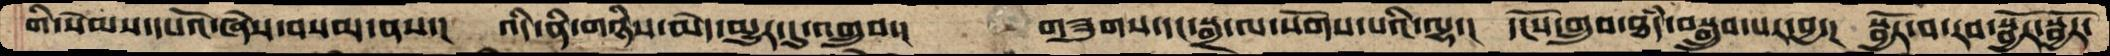གི་སེམས་དཔའོ་ཞེས་བསམ་ནས་།  འདི་ནི་གཉིས་མེད་མྱུར་དུ་འགྲུབ་།    གཟུགས་དང་སྒྲ་ལ་སོགས་པའི་ལྷ་།  དངོས་གྲུབ་ཐཾད་བསྒྲུབ་པར་བྱ་།  སྦྱོར་བ་རབ་སྦྱོར་སྦྱོར་
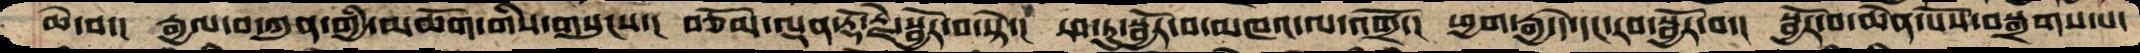ཆེ་བ་།  རྒྱལ་བ་ཀུན་གྱི་མཆོག་གིས་གསུངས་།  བཅོམ་ལྡན་རྡོ་རྗེ་སྦྱོར་བ་སྟེ་།  རབ་ཏུ་སྦྱོར་བ་མཁའ་ལ་འགྲོ་། ཕྱག་རྒྱ་དེ་དང་རབ་སྦྱོར་བ་།  སྦྱོར་བ་ཆེན་པོས་བསྒྲགས་པ་
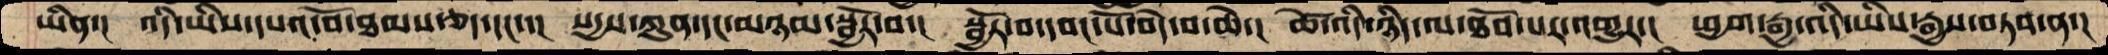ཡིན་།  འདི་ཡིས་དཔའ་བོ་ཐམས་ཅད་དང་་།  སདྱས་ཀུན་དང་མཉམ་སྦྱོར་བ་།  སྦྱོར་བ་དབང་པོ་བདེ་བ་ཆེ་།  ཚེ་འདི་ཉིད་ལ་ཐོབ་པར་འགྱུར་།  ཕྱག་རྒྱ་འདི་ཡིས་རྒྱས་བཏབ་ན་།
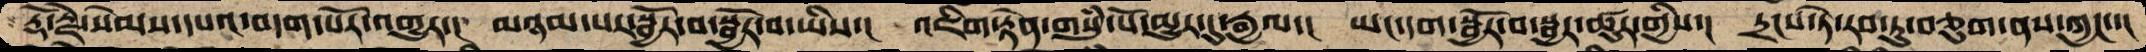རྡོ་རྗེ་སེམས་དཔའ་བདག་པོར་འགྱུར་།  མཉམ་པར་སྦྱོར་བ་སྦྱོར་བ་ཡིས་།  འཇིག་རྟེན་གསུཾ་པོ་མྱུར་དུ་རྒྱལ་།  ཡང་དག་སྦྱོར་བ་སྦྱར་ཚུར་གྱིས་།  དྲངས་ཏེ་རབ་ཏུ་བཅུག་ནས་ཀྱང་་།
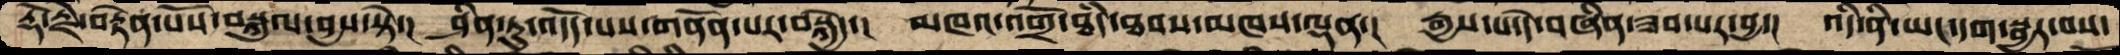རྡོ་རྗེ་བརྟེན་པོས་བསྐུལ་བྱས་སྟེ་།  ཤིན་ཏུ་འདོད་པས་གནོན་པར་བསྐྱེད་།  མཁའ་འགྲོ་ཐཾད་ཐབས་མཁས་ལྡན་།  རྒྱས་པ་དེ་བཞིན་ཟབ་པར་བྱ་།  འདི་ནི་ཡང་དག་སྦྱར་བས་
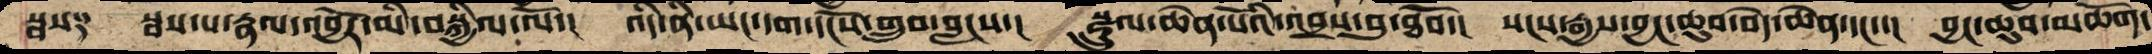སྦས༑  སྦས་པ་རྣལ་འབྱོར་མི་བསྐྱིལ་ལོ་།  འདི་ནི་ཡང་དག་དངོས་གྲུབ་བླངས་།  སྫྲུལ་ཆེན་པོའི་འབྲས་བུ་ཐོབ་།  སངས་རྒྱས་བྱང་ཆུབ་བདེ་ཆེན་དང་་།  བྱང་ཆུབ་མཆོག་
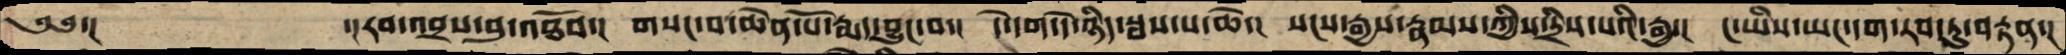༄༅་།     ་།རབ་འབྲས་བུ་འཐོབ་།  གསང་བ་ཆེན་པོ་རྨད་བྱུང་བ་།  དེ་དག་དེ་ཉིད་སྦས་པ་ཆེ་།  སངས་རྒྱས་རྣམས་ཀྱིས་དྲིས་པའི་རྒྱུ་།  ང་ཡིས་ཡང་དག་རབ་ཏུ་བརྟན་།
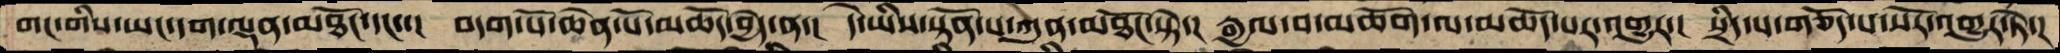གང་གིས་ཡང་དག་ལྡན་མཐོང་དང་་།  བདག་པོ་ཆེན་པོ་མཆོད་བྱེད་ན་།  དེ་ཡིས་སྟོན་པ་ཀུན་མཐོང་སྟེ་།  རྒྱལ་བ་མཆོག་ལ་མཆོད་པར་འགྱུར་།  སྲིད་པ་གཅོད་པ་སོར་འགྱུར་ཏེ་།།
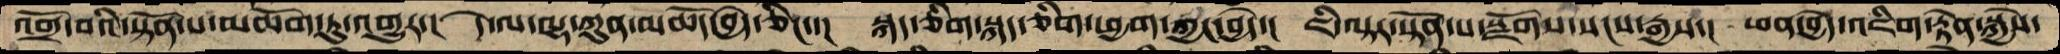འགྲོ་བའི་སྟོན་པ་མཆོག་ཏུ་གྱུར་།  དེ་ལ་ལྷ་ཀུན་མཆོད་བྱེད་ཅིང་་།  སྐད་ཅིག་སྐད་ཅིག་ཕྱག་ཀྱང་བྱེད་།  ཇི་ལྟར་སྟོན་པ་སྫོགས་སངས་རྒྱས་།  ཕན་བྱེད་འཇིག་རྟེན་སྐྱེས་
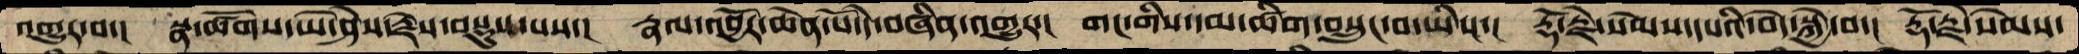འགྱུར་བ་།  སྣ་ཚོགས་ཡེ་ཤེས་རྗེས་བསྡུས་པས་།  རྣལ་འབྱོར་ཆེན་པོ་དེ་བཞིན་འགྱུར་།  གང་གིས་དམ་ཚིག་བསྲུང་བ་ཡིས་།  རྡོ་རྗེ་སེམས་དཔའི་བདེ་སྐྱེ་བ་།  རྡོ་རྗེ་སེམས་
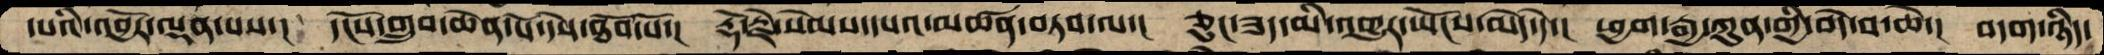དཔའི་འབྱོར་ལྡན་པས་།  དངོས་གྲུབ་ཆེན་པོ་དེས་ཐོབ་སོ་།  རྡོ་རྗེ་སེམས་དཔའ་མཚན་བཏབ་ལ་།  ཅུང་ཟད་མི་འགྱུར་ཡོངས་མེད་དེ་།  ཕྱག་རྒྱ་ཀུན་གྱི་བདེ་བ་ཆེ་།  བདག་ཉིད་
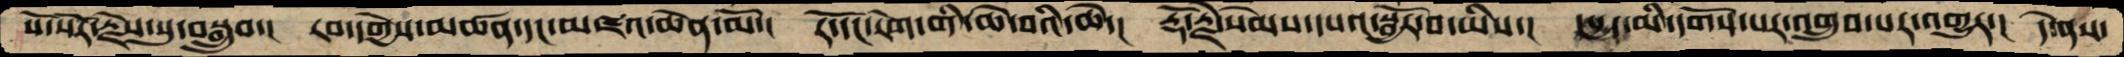སོ་སོར་རྗེས་སུ་བསྒྲུབ་།  རབ་དགྱེས་མཚན་དང་མཛའ་ཆེན་མོ་།   ར་དོང་རེག་གི་ཆེ་བའི་ཆེ་།  རྡོ་རྗེ་སེམས་དཔའ་སྦྱོར་བ་ཡིས་།  དཔྱད་མི་དགོས་པར་འགྲུབ་པར་འགྱུར་།  དེ་ནས་
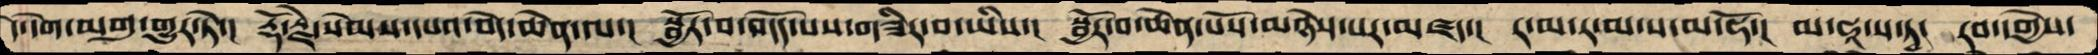དེ་དགེ་མགུ་གྱུར་ཏེ་།  རྡོ་རྗེ་སེམས་དཔའ་བདེ་ཆེན་ལ་།  སྦྱོར་བ་འདོད་པས་གཟིར་བ་ཡིས་།  སྦྱོར་བ་ཆེན་པོས་མཉེས་པར་མཛད་།  ར་མ་ར་མ་ས་མ་ཧོ་།  མ་ཧཱ་ས་ཏྭ།  རབ་དགྱེས་
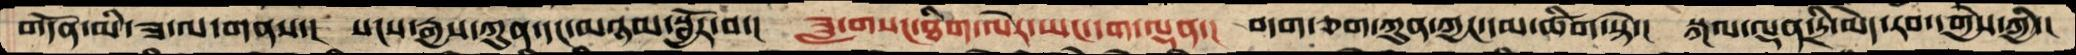གདོན་མི་ཟ་ལ་གནས་།  སངས་རྒྱས་ཀུན་དང་མཉམ་སྦྱོར་བ་།  ཟླ་གསང་ཐིག་ལེར་ཡང་དག་ལྡན་།  བདག་ཅག་ཀུན་ཀྱང་མ་ཚིག་སྟེ་།  སྐལ་ལྡན་དྲི་མེད་རབ་དགྱེས་ཀྱི་
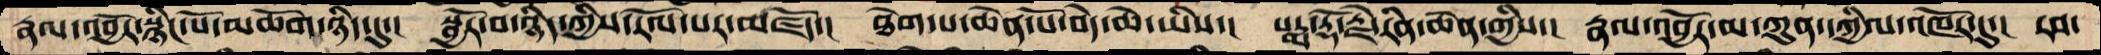རྣལ་འབྱོར་སྙིང་པོ་མཆོག་ཉིད་དུ་།  སྦྱོར་བ་ཉིད་ཀྱིས་རོལ་པར་མཛོད་།  ཐེག་པ་ཆེན་པོ་བདེ་ཆེ་ཡིས་།  པདྨ་རྡོ་རྗེ་རིན་ཆེན་གྱིས་།  རྣལ་འབྱོར་མ་ཀུན་དཀྱིལ་འཁོར་དུ་།  རབ་
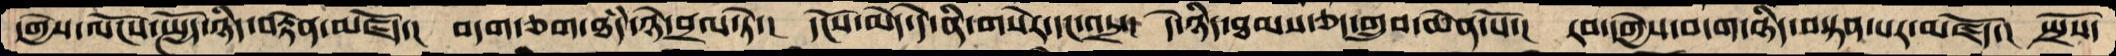དགྱེས་ལོངས་སྤྱོད་ཉིད་བརྟེན་མཛོད་།  བདག་ཅག་ཐཾད་ཉེ་བྲལ་ཏེ་།  དངོས་མེད་དེ་ནི་གསེར་དང་འདྲ་།  དེ་ཉིད་ཐམས་ཅད་གྲུབ་ཆེན་པོ་།  རབ་དགྱེས་བདག་ཉིད་བསྟན་པར་མཛོད་།  སྤྲོས་
